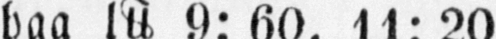haa lU+2114 9: 60, 11: 20
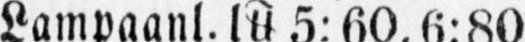Lampaanl.lU+2114 5:60, 6:80
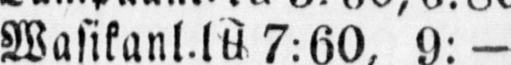Wasikanl.lU+2114 7:60, 9: -
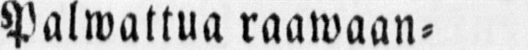Palwattua raawaan-
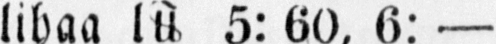lihaa lU+2114 5: 60, 6: —
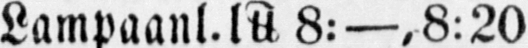Lampaanl.lU+2114 8:—, 8:20
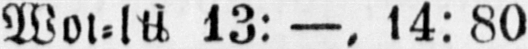Wot-lU+2114 13:—, 14: 80
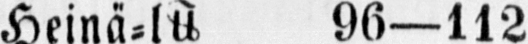Heinä-lU+2114 96—112
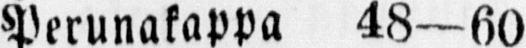Perunakappa 48—60
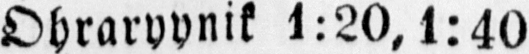Ohraryynik 1:20, 1:40
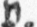p.
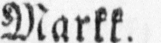Markk.
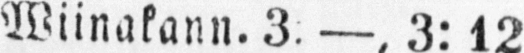Wiinakann.3. —, 3:12
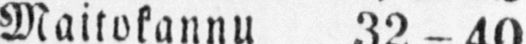Maitokannu 32-40
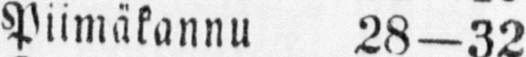Piimäkannu 28—32
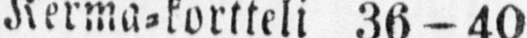Kerma-kortteli 36-40
